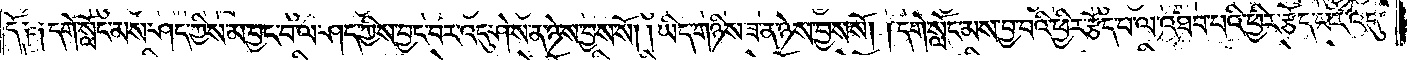དོ༑ ༑དགེ་སློང་མས་ཤད་ཀྱིས་མ་བྱང་བ་ལ་ཤད་ཀྱིས་བྱང་བར་འདུ་ཤེས་ན་ཉེས་བྱས་སོ། །ཡིད་གཉིས་ཟ་ན་ཉེས་བྱས་སོ། །དགེ་སློང་མས་བྱ་བའི་ཕྱིར་རྩོད་པ་ལ་འཐབ་པའི་ཕྱིར་རྩོད་པར་འདུ་
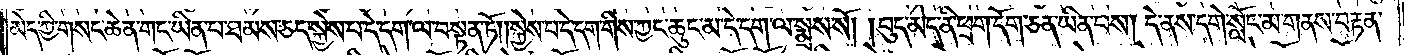མེད་ཀྱི་གསང་ཆེན་གང་ཡིན་པ་ཐམས་ཅད་སྐྱེས་པ་དེ་དག་ལ་བསྟན་ཏོ། །སྐྱེས་པ་དེ་དག་གིས་ཀྱང་ཆུང་མ་དེ་དག་ལ་སྨྲས་སོ། །བུད་མེད་ནི་ཕྲག་དོག་ཅན་ཡིན་པས། དེ་ནས་དགེ་སློང་མ་གནས་བརྟན་
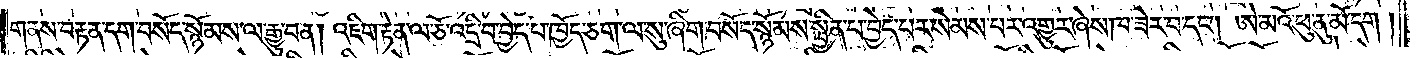གནས་བརྟན་དག་བསོད་སྙོམས་ལ་རྒྱུ་བ་ན། འཇིག་རྟེན་ལ་ཅོ་འདྲི་བ་བྱེད་པ་ཁྱོད་ཅག་ལ་སུ་ཞིག་བསོད་སྙོམས་སྦྱིན་པ་བྱེད་པར་སེམས་པར་འགྱུར་ཞེས་ཁ་ཟེར་བ་དང༌། ཨེ་མའོ་ཕུ་ནུ་མོ་དག །
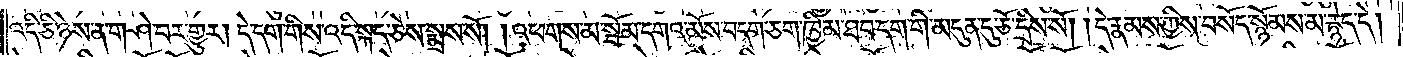འདི་ཅི་ཉེས་ན་གཤེ་བར་གྱུར། དེ་དག་གིས་འདི་སྐད་ཅེས་སྨྲས་སོ། །འཕགས་མ་སྦོམ་དགའ་མོས་བདག་ཅག་ཁྱིམ་ཐབ་དག་གི་མདུན་དུ་ཅོ་དྲིས་སོ། །དེ་རྣམས་ཀྱིས་བསོད་སྙོམས་མ་རྙེད་དེ།
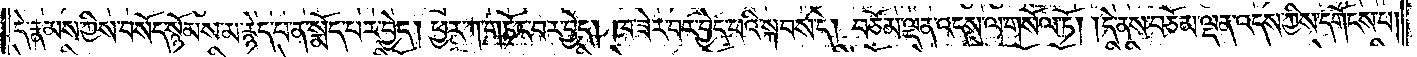དེ་རྣམས་ཀྱིས་བསོད་སྙོམས་མ་རྙེད་པ་ན་སྨོད་པར་བྱེད། ཕྱར་ཀ་གཏོང་བར་བྱེད། ཁ་ཟེར་བར་བྱེད་པའི་སྐབས་དེ། བཅོམ་ལྡན་འདས་ལ་གསོལ་ཏོ། །དེ་ནས་བཅོམ་ལྡན་འདས་ཀྱིས་དགོངས་པ།
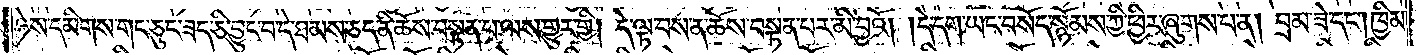ཉེས་དམིགས་གང་ཅུང་ཟད་ཅི་བྱུང་བ་དེ་ཐམས་ཅད་ནི་ཆོས་བསྟན་པ་ལས་གྱུར་གྱི། དེ་ལྟ་བས་ན་ཆོས་བསྟན་པར་མི་བྱའོ། །དེ་དག་ཡང་བསོད་སྙོམས་ཀྱི་ཕྱིར་ཞུགས་པ་ན། བྲམ་ཟེ་དང༌། ཁྱིམ་
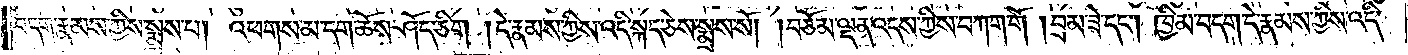བདག་རྣམས་ཀྱིས་སྨྲས་པ། འཕགས་མ་དག་ཆོས་ཤོད་ཅིག །དེ་རྣམས་ཀྱིས་འདི་སྐད་ཅེས་སྨྲས་སོ། །བཅོམ་ལྡན་འདས་ཀྱིས་བཀག་གོ །བྲམ་ཟེ་དང༌། ཁྱིམ་བདག་དེ་རྣམས་ཀྱིས་འདི་
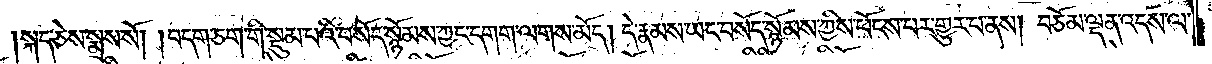སྐད་ཅེས་སྨྲས་སོ། །བདག་ཅག་གི་སྡུམ་པའི་བསོད་སྙོམས་ཀྱང་དགག་ལགས་མོད། དེ་རྣམས་ཡང་བསོད་སྙོམས་ཀྱིས་ཕོངས་པར་གྱུར་པ་ནས། བཅོམ་ལྡན་འདས་ལ་
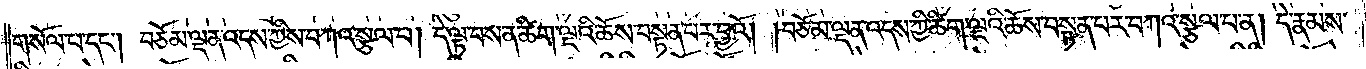གསོལ་བ་དང༌། བཅོམ་ལྡན་འདས་ཀྱིས་བཀའ་སྩལ་པ། དེ་ལྟ་བས་ན་ཚིག་ལྔའི་ཆོས་བསྟན་པར་བྱའོ། །བཅོམ་ལྡན་འདས་ཀྱི་ཚིག་ལྔའི་ཆོས་བསྟན་པར་བཀའ་སྩལ་པ་ན། དེ་རྣམས་
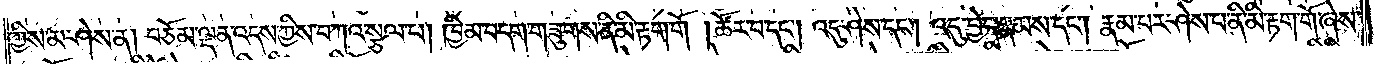ཀྱིས་མ་ཤེས་ན། བཅོམ་ལྡན་འདས་ཀྱིས་བཀའ་སྩལ་པ། ཁྱིམ་བདག་གཟུགས་ནི་མི་རྟག་གོ །ཚོར་བ་དང༌། འདུ་ཤེས་དང༌། འདུ་བྱེད་རྣམས་དང༌། རྣམ་པར་ཤེས་པ་ནི་མི་རྟག་གོ་ཞེས་
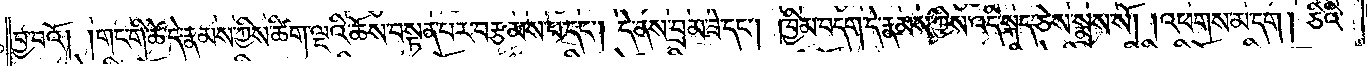བྱ་བའོ། །གང་གི་ཚེ་དེ་རྣམས་ཀྱིས་ཚིག་ལྔའི་ཆོས་བསྟན་པར་བརྩམས་པ་དང༌། དེ་ནས་བྲམ་ཟེ་དང༌། ཁྱིམ་བདག་དེ་རྣམས་ཀྱིས་འདི་སྐད་ཅེས་སྨྲས་སོ། །འཕགས་མ་དག །ཅིའི་
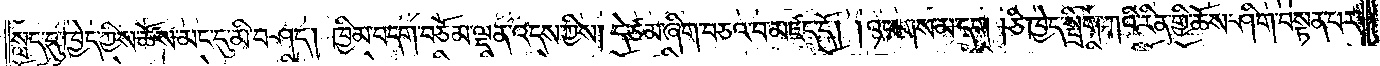སླད་དུ་ཁྱེད་ཀྱིས་ཆོས་མང་དུ་མི་བཤད། ཁྱིམ་བདག་བཅོམ་ལྡན་འདས་ཀྱིས། དེ་ཙམ་ཞིག་བཅའ་བ་མཛད་དོ། །འཕགས་མ་དག། ཅི་ཁྱེད་སྤྲིག་ཀའི་རིན་གྱི་ཆོས་ཤིག་བསྟན་པར་
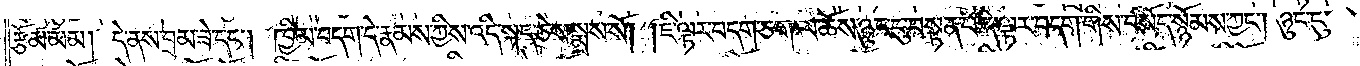རྩོམ་མམ། དེ་ནས་བྲམ་ཟེ་དང༌། ཁྱིམ་བདག་དེ་རྣམས་ཀྱིས་འདི་སྐད་ཅེས་སྨྲས་སོ། །ཇི་ལྟར་བདག་ཅག་ལ་ཆོས་ཉུང་ངུ་བསྟན་པ་དེ་ལྟར་བདག་གིས་བསོད་སྙོམས་ཀྱང༌། ཉུང་ངུ་
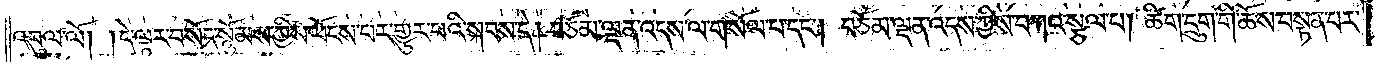འབུལ་ལོ། །དེ་ལྟ་བསོད་སྙོམས་ཀྱིས་ཕོངས་པར་གྱུར་པའི་སྐབས་དེ། བཅོམ་ལྡན་འདས་ལ་གསོལ་བ་དང༌། བཅོམ་ལྡན་འདས་ཀྱིས་བཀའ་སྩལ་པ། ཚིག་དྲུག་གི་ཆོས་བསྟན་པར་
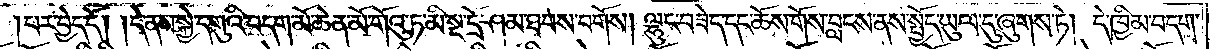པར་བྱེད་དོ། །དེ་ནས་སྐྱེ་དགུའི་བདག་མོ་ཆེན་མོ་གོའུ་ཏ་མི་སྔ་དྲོ་ཤམ་ཐབས་བགོས། ལྷུང་བཟེད་དང་ཆོས་གོས་བླངས་ནས་སྤྱོད་ཡུལ་དུ་ཞུགས་ཏེ། དེ་ཁྱིམ་བདག་
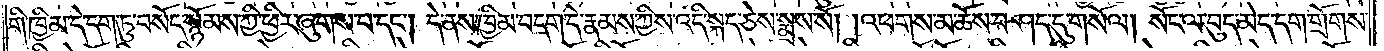གི་ཁྱིམ་དེ་དག་ཏུ་བསོད་སྙོམས་ཀྱི་ཕྱིར་ཞུགས་པ་དང༌། དེ་ནས་ཁྱིམ་བདག་དེ་རྣམས་ཀྱིས་འདི་སྐད་ཅེས་སྨྲས་སོ། །འཕགས་མ་ཆོས་བཤད་དུ་གསོལ། སོང་ལ་བུད་མེད་དག་གྲོགས་
